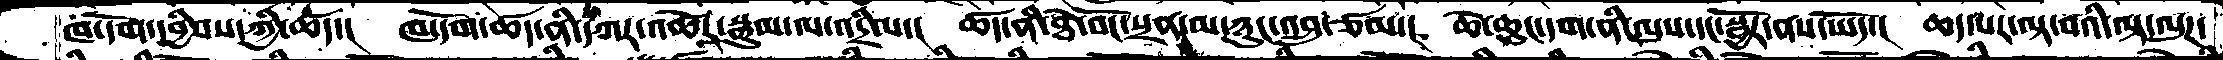ཁ་དོག་དབྱིབས་ཀྱི་ཚད་།  ཁ་དོག་ཚད་ནི་དཀར་འཚེར་སྣུམ་ལ་འདྲིལ་།  ཚད་ནི་ཐེ་བོང་སྲན་མ་ཉུང་འབྲུ་ཙམ་།  ཆེ་ཆུང་དག་ནི་ལུས་དང་སྦྱོར་ནས་ཡོད་།  ཆད་པར་ལྟ་བའི་ལྟ་ལུཌ་
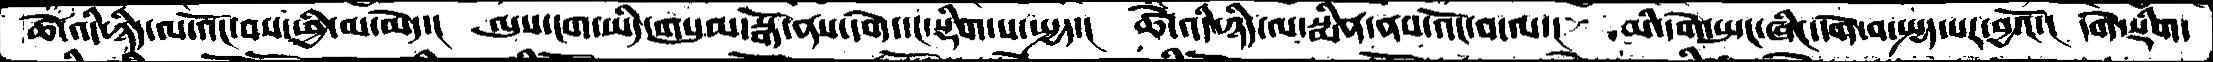ཚེ་འདི་ཉིད་ལ་འོང་བས་ཕྱི་མ་མེད་།  ལུས་ངག་ཡིད་གསུམ་སྒོ་ནས་དགེ་དང་སྡིག་པ་སྤྱད་།  ཚེ་འདི་ཉིད་ལ་སྨིན་ནས་འོང་བ་ལ་།  མི་དགེ་སྤང་ཞིང་དགེ་བ་སྤྱད་པར་བྱའོ་།  དགེ་སྡིག་
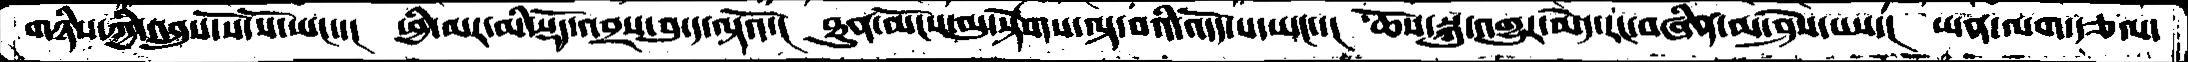གཉིས་ཀྱི་འབྲུས་སོ་སོ་ཡང་་།  ཕྱི་མར་མི་སྡོད་འབྲས་བུ་ད་ལྟའོ་།  ཐུན་མོངས་མུ་སྟེགས་ལྟ་བའི་འདོད་པ་ཡང་་།  ཆོས་སྐུ་འགྱུར་མེད་རང་བཞིན་མ་ཤེས་པས་།  ཡན་ལག་རྩལ་
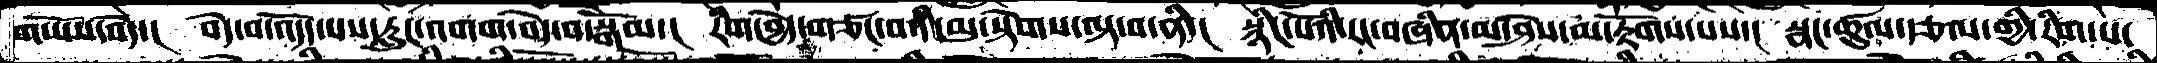གཡོས་བདེ་།  བདེ་བ་འདོད་པས་རླུང་འགག་བདེ་བ་སྒོམ་།  རིག་བྱེད་གཙང་བའི་མུ་སྟེགས་ལྟ་བ་ནི་།  སྙིང་པོའི་རང་བཞིན་མ་ཤེས་མ་རྟོགས་པས་།  སྣང་ཚུལ་རྩལ་གྱི་རིག་པ་
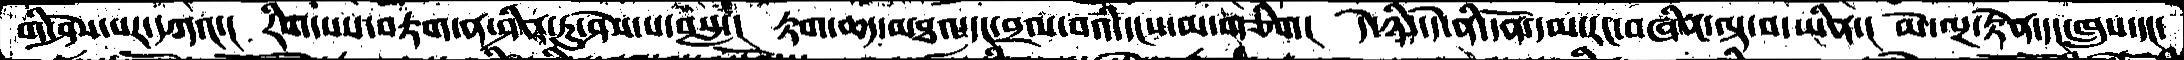གི་ཤེས་པར་དཀའ་།  རིག་པས་བརྟག་ན་ཤིན་ཏུ་ཤེས་པ་བསླ་།  རྟག་ཆད་མཐའ་དང་བྲལ་བའི་དངས་མ་གཅིག།  དེ་ཉིད་དེ་ནི་དོན་དམ་རང་བཞིན་ལྟ་བ་ཡིན་།  མེ་ལྔ་རྟེན་དང་ཁྲུས་དང་
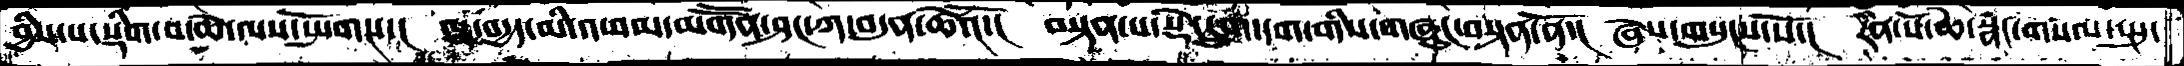བྱིས་པ་སྡིག་པ་ཚེ་ལས་སྤོགས་་།  ལྷ་བདྱད་མི་འཕམ་མགཽན་ཤང་ཀ་བདུན་ཆེའོ་།  བསྟན་པ་སྡེ་དྲུག་དག་གིས་གཞུང་བསྟན་ནོ་།  ཞེས་གསུངས་སོ་།  རིན་པོ་ཆེ་སྣང་གསལ་སྤུ་
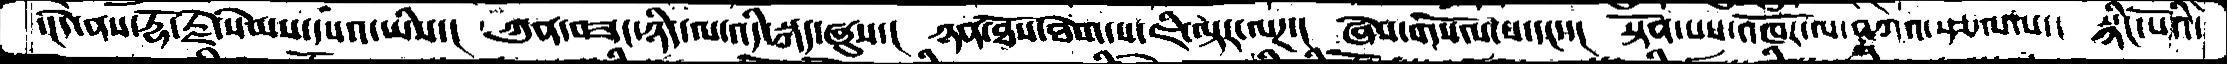་།དེ་ནས་རྡོ་རྗེ་སེམས་དཔའ་ཡིས་།  ཀུན་བཟང་ཉིད་ལས་འདི་སྐད་ཞུས་།  ཉན་ཐོས་ཐེག་པ་ཇི་ལྟར་ལཌ་།  ཞེས་གསོལ་པ་དང་་།  སྟོན་པས་འཁོར་ལ་བཀའ་སྩལ་པ་།  སྙིང་པོའི་
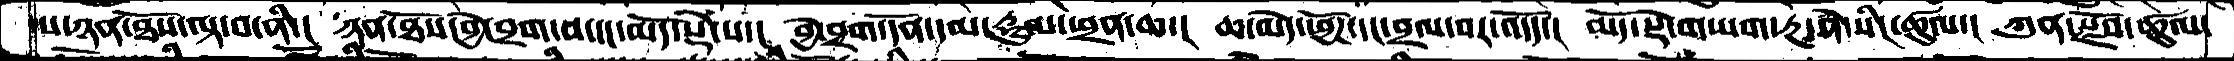པ་ཉན་ཐོས་ལྟ་བ་ནི་།  ཉན་ཐོས་བྱེ་བྲག་བ་དང་མདོ་སྡེ་པ་།  བྱེ་བྲག་དོན་དམ་རྡུལ་ཕྲན་ཆ་།  ཆ་མེད་ཕྱོཌ་དང་བྲལ་བར་འདོད་།  མདོ་སྡེ་གཡག་རྔ་ནེ་སིང་ཚུལ་།  ཀུན་སྫོབ་ཚུལ་
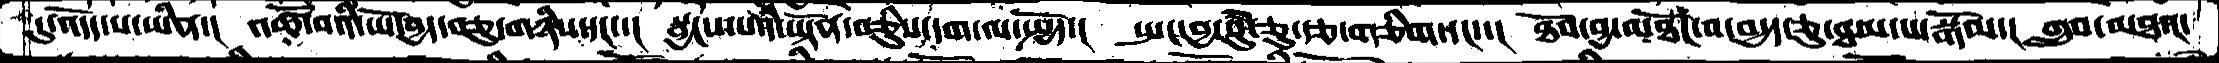དུ་འདོད་པ་ཡིན་།  འཚོ་བའི་ཡོ་བྱད་བཅུ་གཉིས་དང་་།  སྦྱངས་པའི་ཡྟོན་བཅིུས་དག་ལ་སྤྱོད་།  སྤང་བྱ་སུཾ་ཅུ་རྩ་གཅིག་དང་་།  ཐོབ་བྱ་མཐོང་བ་བདྱད་ཅུ་ཐམ་པ་སྒོམ་།  གྲུབ་མཐའ་
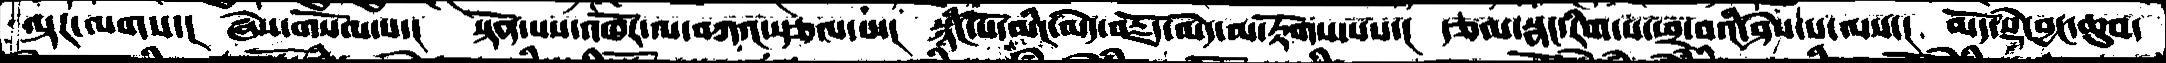ལྟར་ལགས་།  ཞེས་གསོལ་པ་།  སྟོན་པས་འཁོར་ལ་བཀའ་སྩལ་པ་།  སྙིང་པོ་མིང་མེད་བརྗོད་མེད་མ་རྟོགས་པས་།  རྩལ་སྣང་རིག་པ་ཕྲ་བའི་ཤེས་པ་ལས་།  མདོ་སྡེ་བྱང་ཆུབ་
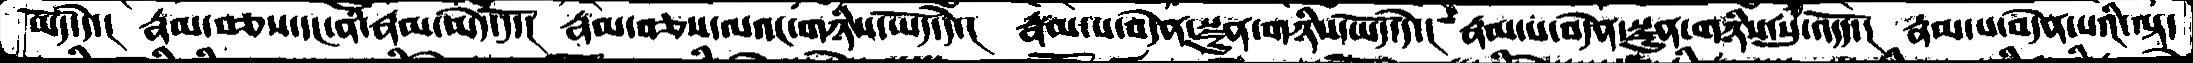ཡོད་དེ་།  རྣམ་བཅས་དང་ནི་རྣམ་མེད་དོ་།  རྣམ་བཅས་ལའང་གཉིས་ཡོད་དེ་།  རྣམ་པ་བདེན་སྫུན་གཉིས་ཡོད་དེ་།  རྣམ་པ་བདེན་སྫུན་གཉིས་སུ་འདོད་།  རྣམ་པ་བདེན་པའི་ལྟ་
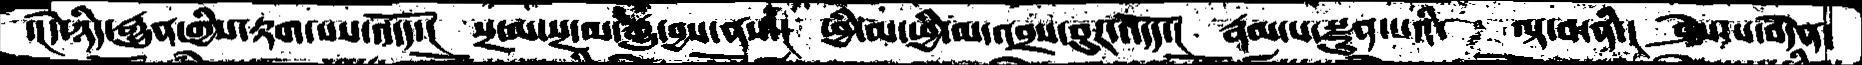་།དེ་ཉིད་རྒྱུན་གྱིས་རྟག་པས་འདོད་།  སྔ་མ་སྔ་མ་རྒྱུ་བྱས་ནས་།  ཕྱི་མ་ཕྱི་མ་འབྲས་བུར་འདོད་།  རྣམ་པ་སྫུན་པའི་     ལྟ་བ་ནི་།  ཤེས་པ་བདེན་
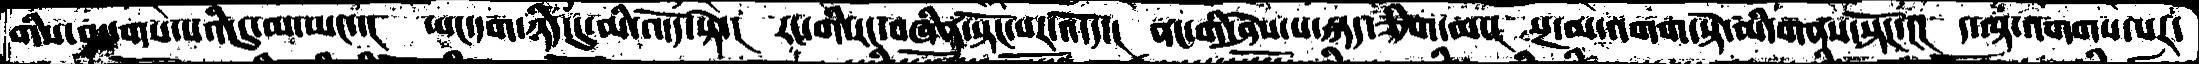གིས་བསག་པའི་དུ་མ་ཡང་་།  ཡང་དག་ཉིད་དུ་མི་འདོད་སྟེ་།  རང་གིས་རང་བཞིན་སྟོང་པར་འདོད་།  ནང་གི་ཤེས་པ་སྐད་ཅིག་མ་།  སྔ་མ་འགག་སྟེ་མི་གནས་སྟོང་།།།  ད་ལྟ་འགགས་པར་
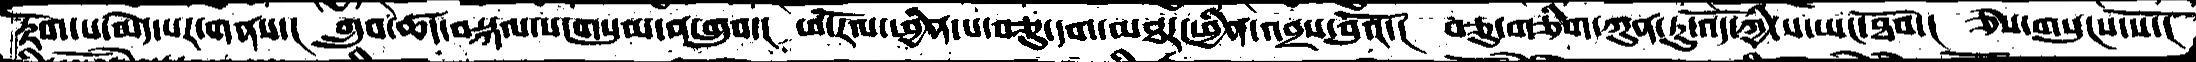རྟོག་པ་མེད་པར་གནས་།  གྲུབ་ཚད་བསྐལ་པ་གསུམ་ན་གྲུབ་།  ཕ་རོལ་ཕྱིན་པ་བཅུ་དག་མཐར་ཕྱིན་འབྲས་བུའོ་།  བཅུ་གཅིག་ཀུན་ཏུ་འོད་ཀྱི་ས་ཡང་ཐོབ་།  ཅེས་གསུངས་སོ་།
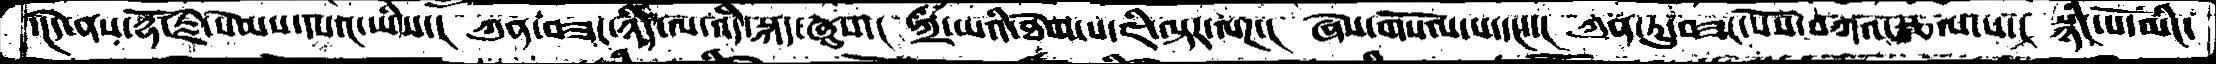་།དེནས་རྡོ་རྗེ་སེམས་དཔའ་ཡིས་།  ཀུན་བཟང་ཉིད་ལ་འདི་སྐད་ཞུས་།  ཀྲི་ཡའི་ཐེག་པ་ཇི་ལྟར་ལཌ་།  ཞེས་གསོལ་པ་དང་་།  ཀུན་ཏུ་བཟང་པོས་བཀའ་སྩལ་པ་།  སྙིང་པོ་མིང་
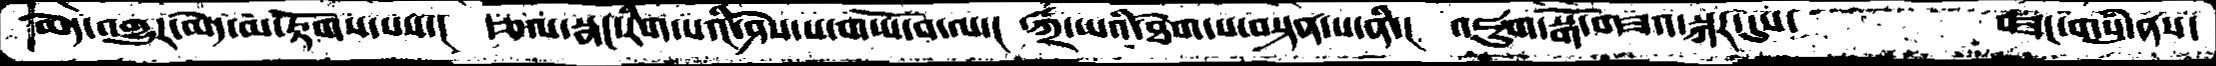མེད་འགྱུར་མེད་མ་རྟོགས་པས་།  རྩལ་སྣང་རིག་པའི་ཤེས་པ་གཡོ་བ་ལ་།  ཀྲི་ཡའི་ཐེག་པ་བསྟན་པ་ནི་།  འཇུག་སྒོ་གཟའ་སྐར་དུས་          བཟང་གསུཾ་ནས་
